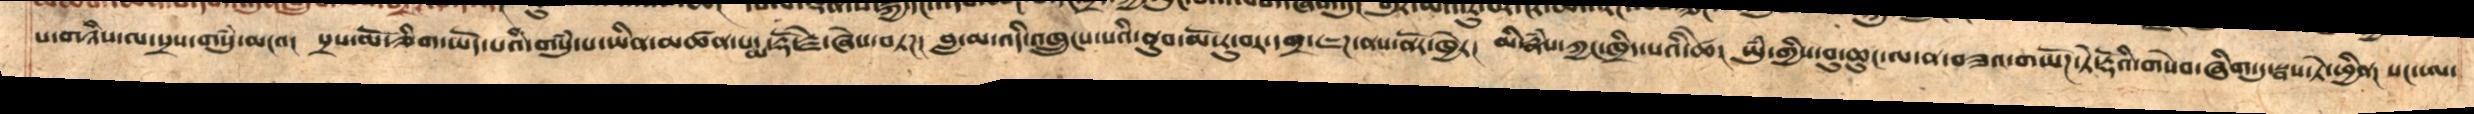པ་གཉིས་ལ་སྲས་གསུཾ་མངའ།  སྲས་མོ་ཅིག་ཡོད་པའི་གསུཾ་པ་ཡིན་མཚན་པདྨ་རྡོ་རྗེ་ཞེས་བཏཌ། བླ་མ་འདི་འཁྲུངས་པའི་ནུབ་མོ་རུ་བར་དགྲ་ཇཌ་ནས་ནོར་ཁྱེར། མི་རྣཾས་ཀྱང་ཁྲིད་པའི་ཚེ། ཡུཾ་གྱིས་བུ་ཆུང་ལ་ན་བཟའ་གཡོཌ་ཏེའི་རྡོའི་གསེབ་ཞིག་དུ་སྦས་ཏེ་ཕྱིན། སང་ཨ་
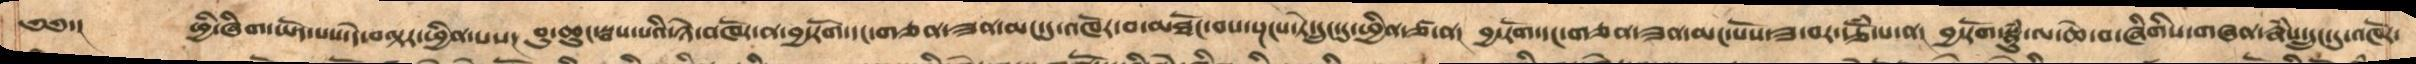༄༅་།    ཕྱི་ཞིག་ཡོད་པཔ་དེ་བལྟར་ཕྱིན་པས།  བུ་ཆུང་སྦས་པའི་ཉེ་བཁོར་ན་བྱ་རོག་དང་གཅན་ཟན་མང་དུ་འཁོར་བ་མཐོང་བས་སྔངས་ཏེ་དྲུང་དུ་ཕྱིན་ཙ་ན།  བྱ་རོག་དང་གཅན་ཟན་མང་པོས་ཟ་བར་རྩོཾ་པ་ན།  བྱ་རོག་སྣུཾ་ལ་ཆེ་བ་ཞིགིས་གཞན་རྣཾས་དྲུང་དུ་འཁོར་
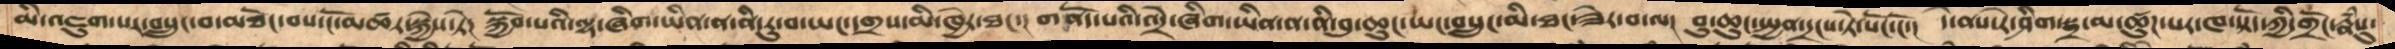མི་འཇུག་པར་བསྲུང་བ་མཐོང་བས་ངོ་མཚར་སྐྱེས་ཏེ།  སྐྱོབ་པའི་ལྷ་ཞིག་ཡིན་ན་ནི་རུ་བ་ཡང་དགྲས་མི་ཁྱེར་ཐང་།  གནོད་པའི་འདྲེ་ཞིག་ཡིན་ན་ནི་བུ་ཆུང་ཡང་བསྲུང་མི་ཐང་ཟེར་བ་ལ།  བུ་ཆུང་སྤྱན་དྲངས་ཏེ་སོང་ངོ་།  དེ་ནས་རེ་ཤིག་སྦྲ་མ་ཚུཌ་པར་ཁ་སྟོད་ཀྱི་གྲོང་རྣཾསུ་
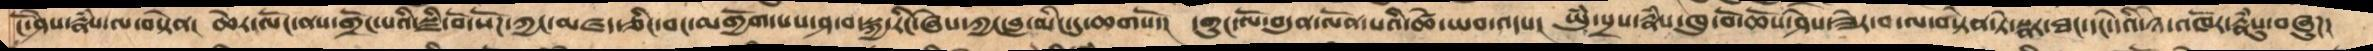ངོ་ཤེས་རྣཾས་ལ་བསྟེན།  ཆེར་ལོང་ནས་གྲོང་པའི་སྫི་བོ་སོཌ་ཀྱང་མཛད་ཅིང་བང་མགྱོག་པས་ཤ་བ་སྐྱ་རིང་ཞེས་ཀྱང་བླ་མིང་དུ་ཆགསོ་།  དགུང་ལོ་བདུན་ལོན་པའི་ཚེ་ཡབ་འདས།  ཡུཾ་སྲས་རྣཾས་ཁུ་བོ་ཆོས་ཤེས་ཟེར་བ་ལ་བསྟེན་ཏེ་སྣར་ཐང་དང་དེའི་ཉེ་འཁོར་རྣཾསུ་བཞུཌ།
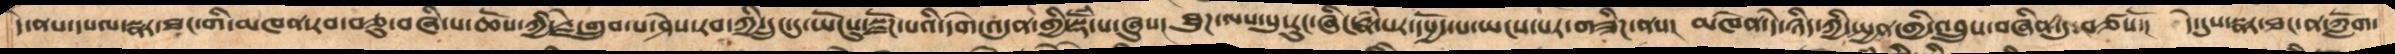དེ་ནས་དཔལ་སྣར་ཐང་གི་མཁན་རབ་བཅུ་བཞི་པ་ཆོས་ཀྱི་རྗེ་གྲུབ་པ་ཤེས་རབ་ཀྱི་དྲུང་དུ་ཡོངསུ་སྫོཌ་པའི་དགེ་འདུན་གྱི་སྡོཾ་པ་ཞུས།   ཐུཌ་ལས་སུ་རུང་ཞིང་རྣཾས་པར་དཔྱོད་པ་ཡངས་པར་གཟིཌ་ནས།  མཁེན་དེ་ཉིད་ཀྱི་སྤྱན་གྱི་འབྲུས་བཞིན་དུ་བཙསོ་།  དེ་དུས་སྣར་ཐང་ན་ཀློག་
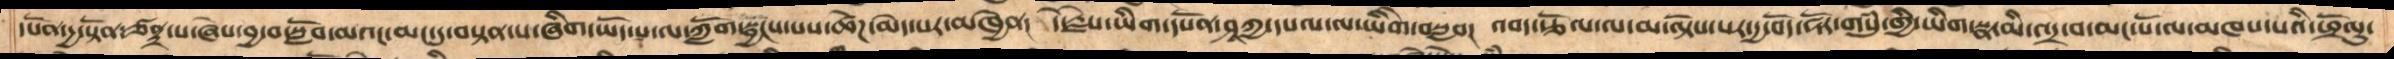དཔོན་དྱ་སྟོན་ཙནྟྲ་པ་ཞེས་བྱ་བ་སློབ་མའང་མང་དུ་བསྟན་པ་ཞིག་ཡོད་པ་ལ་ཀློག་སྦྱོངས་པས་ཚེཌ་མེད་པར་མཁྱེན།   དེ་རྗེས་ཡིག་དཔོན་ཤཱཀྱ་དཔལ་ལ་ཡིགེ་བསླབ།  འབད་རྩོལ་ལ་མ་ལྟོས་པར་དྱ་བོད་ཧོར་གསུཾ་གྱི་ཡིག་སྣར་མི་འདྲ་བ་མང་པོ་ལ་མཁས་པའི་ཕྲོལུ་
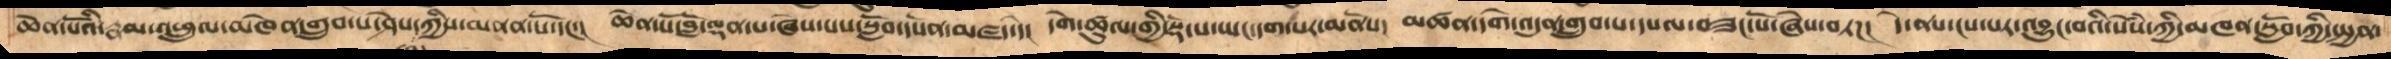ཆེན་པོའི་རྣམ་འཕྲུལ་མཁེན་གྲུབ་པ་ཤེས་ཀྱིས་མནན་སོ་དང་།   ཆེན་པོ་བློ་ལྡན་པ་ཞེས་པས་སློབ་དཔོན་མཛད་དེ།   དགེ་ཚུལ་གྱི་སྡོ་པ་ཡང་དག་པར་མནོས།   མཚན་དགེ་འདུན་གྲུབ་པ་དཔལ་བཟང་པོ་ཞེས་བཏཌ།   དེ་ནས་ངས་པར་འབྱུང་བའི་སེཾས་ཀྱི་མཁན་སློབ་ཀྱི་སྤྱན་
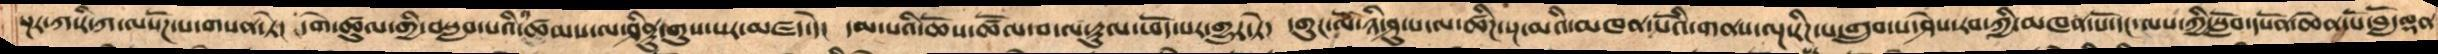སྔར་ཀ་རི་ཀ་ལསོཌ་པ་གསན་ཏེ།  དགེ་ཚུལ་གྱི་བསླབ་པའི་ཚམས་ལ་ཤིནུ་གུས་པར་མཛད་དེ།  དམ་པའི་ཆོས་ཚོལ་བ་ལ་རྟུལ་ཕོད་པར་གྱུར་ཏེ།  དགུང་ལོ་ཉི་ཤུ་པ་ལ་ཚིཌ་སྔ་མའི་མཁན་པོའི་གནས་ལྔ་རིཌ་པ་གྲུབ་པ་ཤེས་རབ་ཀྱི་མཁན་པོ་དང་ལས་ཀྱི་སློབ་དཔོན་ཆེན་པོ་བློ་ལྡན
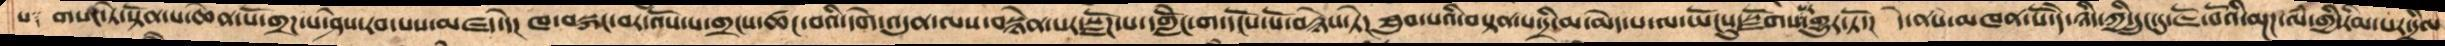པ༑  གསང་ཏེ་སྟོན་པ་ཆེན་པོ་གྲཌ་པ་ཤེས་རབ་པས་མཛད་དེ།  ཁ་བསྐང་བར་འོས་པ་གྲངས་ཚང་བའི་དགེ་འདུན་ལས་བསྙེན་པར་སྫོཌ་པ་དགློངེ་ག་དངོས་པོ་བརྙེས་ཏེ།  ཐུབ་པའི་བསྟན་པ་དྲི་མ་མེད་པ་ལ་ཡོངསུ་སྫོགས་གྱུར་ཏོ།  དེ་ནས་མཁན་པོ་དེ་ཉིད་ཀྱི་དྲུང་དུ་ཇོ་བོའི་མྔཌ་ལཾ་གྱི་རིམ་པར་དྲིལ་
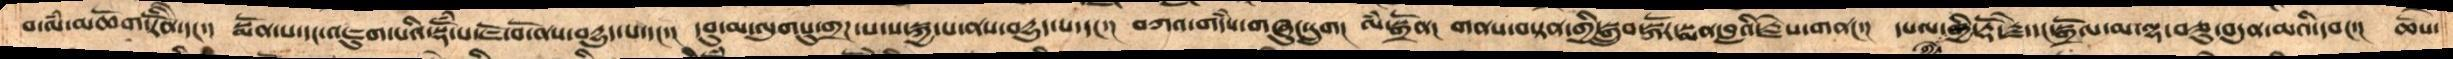བ་ལཾ་མཆོག་རིནོ་ེ་དང་།  སྨོན་པ་དང་འཇུག་པའི་སྡོཾ་པ་ཇོ་བོ་ནས་བདྱུད་པ་དང་།  དབུ་མ་ལུགསུ་གྲཌ་པ་ས་སྐྱ་པ་ནས་བདྱུད་པ་དང་།  བཀའ་གདཾས་གཞུང་དྲུག།  ལཾ་སྒྲོན།  གནས་བསྟན་གྱི་སྒྲུབ་སྐོར་སྨན་བླའི་རྗེས་གནང་།  དཔལ་གྱི་རྡོ་རྗེ་དང་སྒྲོལ་མ་ལྷ་བཅུ་བདུན་མའི་དབང་།  ཆོས་
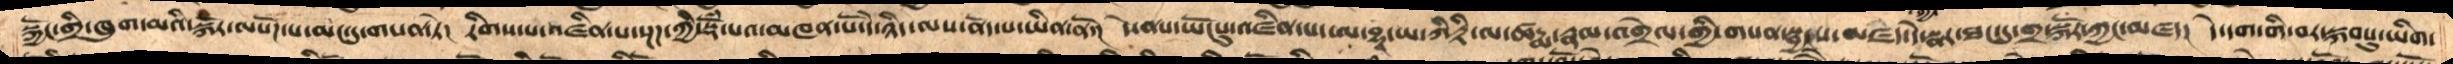སྐྱོང་གྲི་ཁུག་མའི་སྐོར་ལསོཌ་པ་མང་དུ་གསན་ཏེ། རིགས་པ་འཛིན་པ་སྔཌ་ཀྱི་སྡོཾ་པའ་མཁན་པོ་དེ་ཉིད་ལས་ནོད་པ་ཡིན་ནོ། དེ་ནས་ཡོངསུ་འཛིན་པ་ཨ་བྷཱ་ཡ་ཀིརྟི་ལ་ཚདྨ་རྣམ་འགྲེལ་གྱི་གསན་སྦྱོངས་མཛད་དེ་སྣར་ཐང་དུ་གྲ་སྐོར་ཀྱང་མཛད། དེ་དག་གི་བར་སྐབསུ་ཡིག་
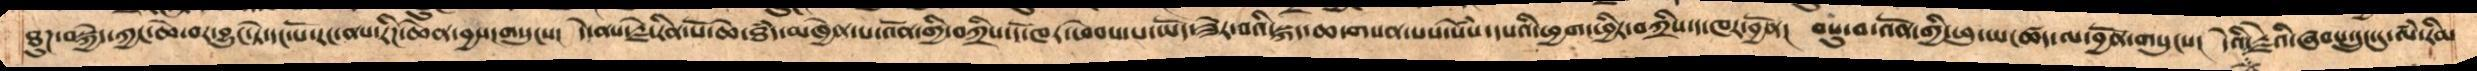ཐུཌ་བསྐྱེད་ཀྱང་ཆེ་བར་བྱུང་ཏེ་དང་པོ་རང་ནས་རིཌ་ཆེན་བྱས་གསུངས།   དེ་ནས་རྗེ་རིན་པོ་ཆེ་ཐཾད་མཁྱེན་པ་འོན་གྱི་བཀྲིས་དོ་ཁར་ཕེབས་པ་ཡོད་ཟེར་བའི་སྐད་ཆ་གསན་པས་སེཾས་དདཔའི་ཕྱག་ཕྱིར་བཀྲིས་ད་ཁར་བྱོན།  བསུ་བ་འོན་གྱི་ཕུ་ཡང་ཚད་ལ་བྱོན་གསུངས།  དེའི་རྗེའི་ཞབས་དྲུང་དུ་ལཾ་རིམ
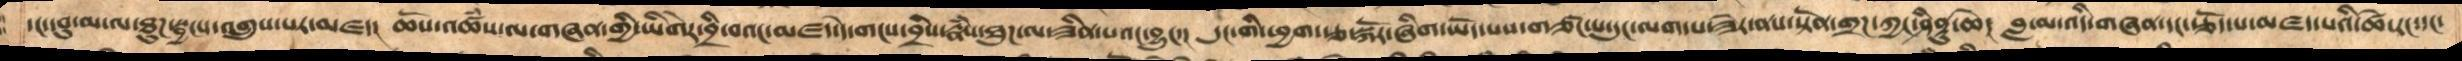དང་དབུ་མ་ལ་ཐུཌ་སྦྱངས་འགྲུས་པར་མཛད།  ཆོས་འཚཾས་ལ་གཞན་གྱི་ཡིགེར་བྲི་བའང་མཛད་དེ་གངས་བྲིས་རྣཾས་ཐུཌ་ལ་ཟིན་པའང་བྱུང་།  དུང་གི་ཕྱག་རྩ་སྐོར་ཞིག་ཡོད་པས་གཙང་པ་དུང་ལག་པ་ཟེར་ནས་སྟོན་གྲཌ་ཀྱང་ཤིནྟུ་ཆེ།  བླ་མ་འདི་གཞན་དང་རྩོད་པ་མཛད་པའི་ཚེ་རང་དང་
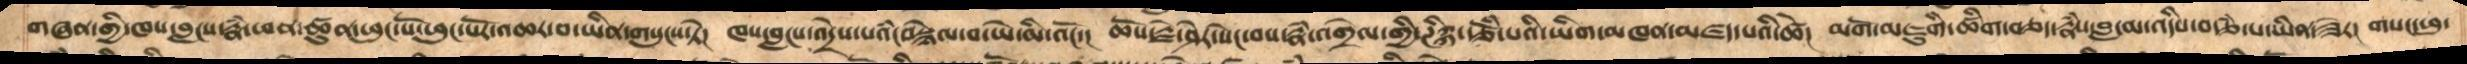གཞན་གྱི་ཁས་བླངས་རྣཾ་ཕན་ཚུན་ཕུང་པོ་ཕུང་པོར་འཆར་བ་ཡིན་གསུངས་ཏེ།  ཁས་བླངས་འདྲེས་པའཾ།བསྙེལ་བ་ཡེ་མི་འོང་།  ཆོས་རྗེ་ཤེར་སེང་བས་རྣཾ་འགྲེལ་གྱི་ཌིཀྐ་རྩོཾ་པའི་ཡིག་མཁན་མཛད་པའི་ཚེ།  མགོ་མཇུགི་ཚིག་བཅད་རྣཾས་བླ་མ་འདིས་བརྩཾ་པ་ཡིན་ཟེར། གསང་ཕུ་
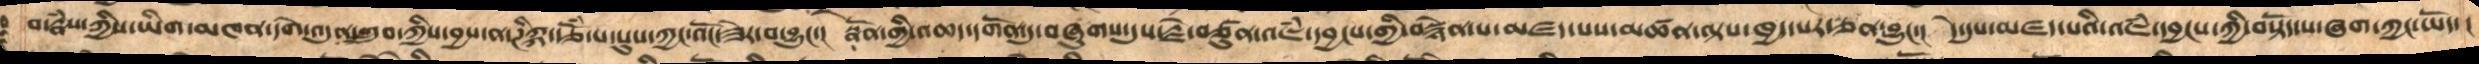བ་རྣཾས་ཀྱིས་ཡིག་མཁན་དགེ་འདུན་གྲུབ་ཀྱིས་བྱས་ན་ཊིཀྐ་རྩོཾ་པ་སུས་ཀྱང་འོང་ཟེར་བ་བྱུང་།  སྣོན་གྱི་འཆད་དགོན་དུ་བཞུགས་དུས་རྗེ་བཙུན་འཇཾ་དབྱངས་གྱི་བསྙེན་པ་མཛད་པས་མཚན་ལྟས་ཁྱད་པར་ཅན་བྱུང་།  དེ་དུས་མཛད་པའི་འཇཾ་དབྱངས་ཀྱི་བསྟོད་པ་ཞག་ཀྱང་ཡོད་།
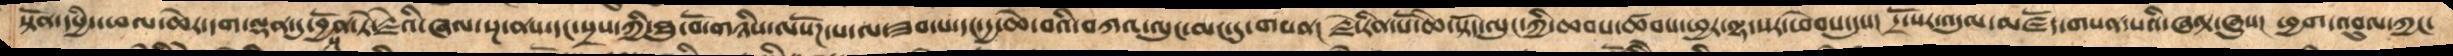སྟོན་དཔྱིད་ཕལ་ཆེར་དགའ་ལྡན་དུ་བྱོན་ཏེ་རྗེའི་ཞལ་སྔ་ནས་དང་སྲས་ཀྱི་ཐུ་བོ་གཉིས་ལསོཌ་པ་ལ་ཟབ་པ་དང་དྱ་ཆེ་བའི་བཀའ་ལུང་མང་དུ་གསན།  རྗེ་རིན་པོ་ཆེ་སྟོད་ལུང་ཀྱི་ཆབས་ཚབས་ཕྱར་ལྷ་སར་ཕེབས་དུས།  དྲ་སོར་འདུལ་མཛོད་གསན་པའི་ཞལྟ་ཞུས།  ཕྱག་འབུལ་ཀྱང་
